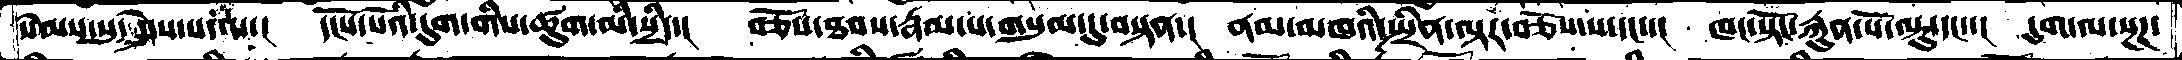སེམས་སུ་ཤེས་པ་ལ་།  དངོས་པོའི་དུག་གིས་ཚུག་མི་སྲིད་།  བཅོས་ཐབས་རྣམ་པ་གསུམ་དུ་བསྟན་།  ནམ་མཁའི་སྤྲིན་ལྟར་བཅོས་པ་དང་་།  ཁང་སྟོང་རྐུན་པོ་ལྟུ་དང་་།  དུག་ལ་སྔཌ་
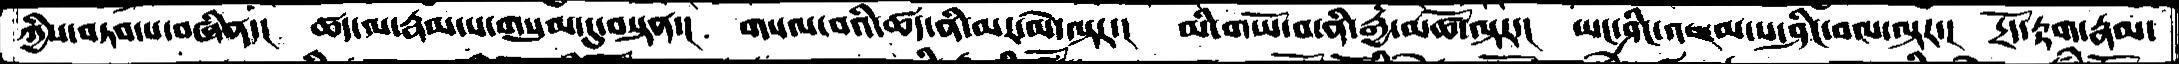ཀྱིས་བཏབ་པ་བཞིན་།  ཚད་ལ་རྣམ་པ་གསུམ་དུ་བསྟན་།  གསལ་བའི་ཚད་ནི་མར་མེ་ལྟར་།  མི་གཡོ་བ་ནི་རྒྱ་མཚོ་ལྟར་།  ཡང་ཤིང་འཇམ་པ་ཤིང་བལ་ལྟར་།  དྲོད་རྟག་རྣམ་
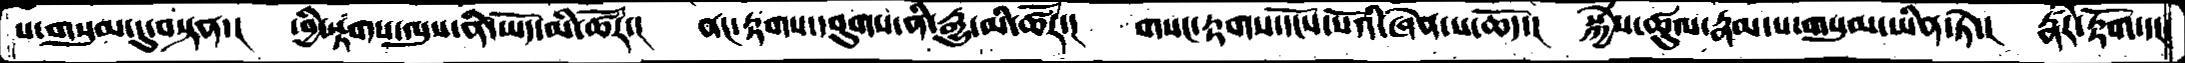པ་གསུམ་དུ་བསྟན་།  ཕྱི་རྟགས་ལུས་ནི་ཡོད་མི་ཚོར་།  ནང་རྟགས་དབུགས་ནི་རྒྱུ་མི་ཚོར་།  གསང་རྟགས་དངོས་པོའི་ཞེན་པ་ཆོད་།  སྐྱེས་ཚུལ་རྣམ་པ་གསུམ་ཡིན་ཏེ་།  རྣཾར་རྟོག་དང་
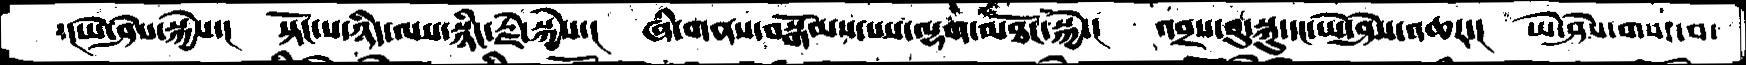་།ཡེ་ཤེས་སྐྱེས་།  སྟོང་པ་ཉིད་ལས་སྙིང་རྗེ་སྐྱེས་།  ཞི་གནས་བསྒོམས་པས་ལྷག་མཐོང་སྐྱེ་།  འབྲས་བུ་སྐུ་དང་ཡེ་ཤེས་འཆར་།  ཡེ་ཤེས་གསང་བ་
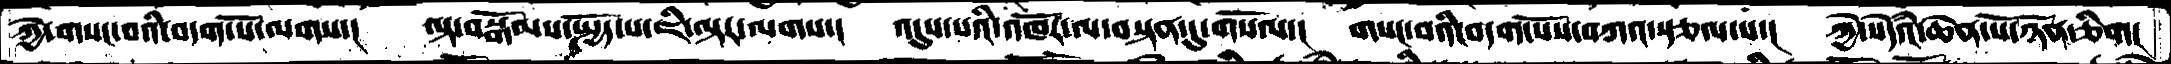ཀྱེ་གསང་བའི་བདག་པོ་ལགས་།  ལྟ་བསྒོམས་སྤྱོད་པ་ཇི་ལྟར་ལགས་།  འདུས་པའི་འཁོར་ལ་བསྟན་དུ་གསོལ་།  གསང་བའི་བདག་པོས་བཀའ་སྩལ་པ།  ཀྱེ་སེཾདའ་ཆེན་པོ་ཉོན་ཅིག།
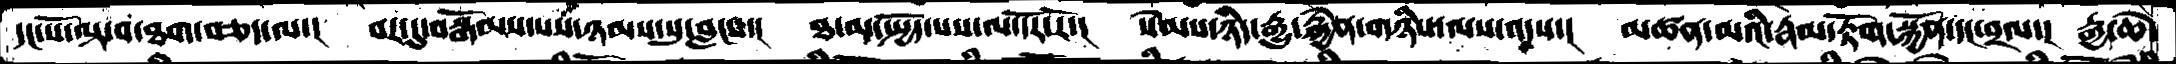དང་པོ་ལྟ་བ་ཐག་བཅད་ལ་།  བར་དུ་བསྒོམས་པས་ཉམས་སུ་བླངས་།  ཐ་མ་སྤྱོད་པས་ལ་དོར་རོ་།  སེམས་ཉིད་རྒྱུ་རྐྱེན་གཉིས་ལས་འདས་།  མཚན་མའི་རྣམ་རྟོག་སྐྱོན་དང་བྲལ་།  རྒྱ་ཆེ་
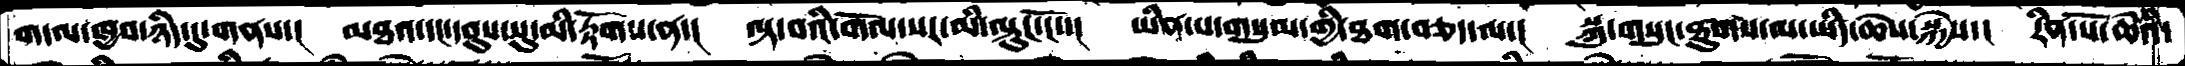གདལ་ཁྱབ་ཉིད་དུ་གནས་།  མཐའ་དང་དབུས་སུ་མི་རྟོགས་ན་།  ལྟ་བའི་གོལ་སར་མི་ལྟུང་ངོ་་།  ཡིན་པ་གསུམ་གྱི་ཐག་བཅད་ལ་།  སྐུ་གསུང་ཐུགས་ལ་ཡིད་ཆེས་སྐྱེས་།  རིན་པོ་ཆེའི་
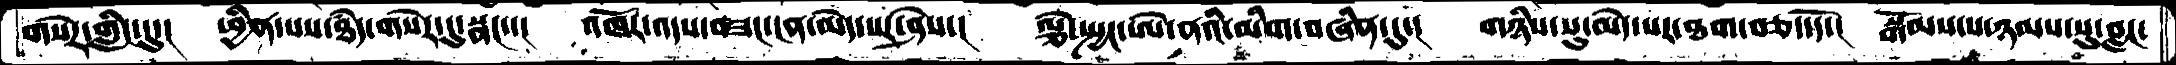གསེར་གླིང་དུ་།  ཕྱིན་པས་ཐཾད་གསེར་དུ་སྣང་་།  འཁོར་འདས་བཟང་ངན་མེད་པར་ཤེས་།  ལྕེ་སྤྱང་ཨེ་ནའི་མིག་བཞིན་དུ་།  གཉིས་སུ་མེད་པར་ཐག་བཅད་དོ་།  སྒོམས་པ་ཉམས་སུ་བླང་
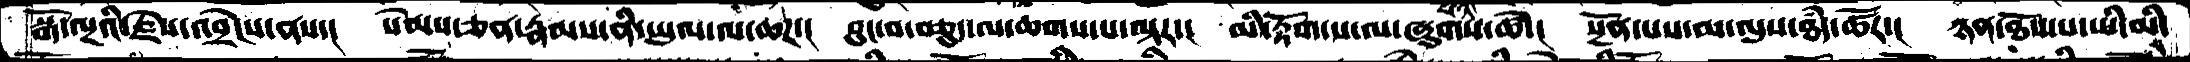སྒོ་ལྔའི་རྗེས་འབྲེངས་ནས་། སེམས་ཅན་རྣམས་ནི་ཡུལ་ལ་ཆཌ་། བུང་བ་བཅུད་ལ་ཆགས་པ་ལྟར་། མི་རྟོག་པ་ལ་ཞུགས་པའི་ཚེ་། སྔོན་པས་མ་ལུས་ཐཾད་ཚོར་། ཉན་ཐོས་པ་ཡི་མི་
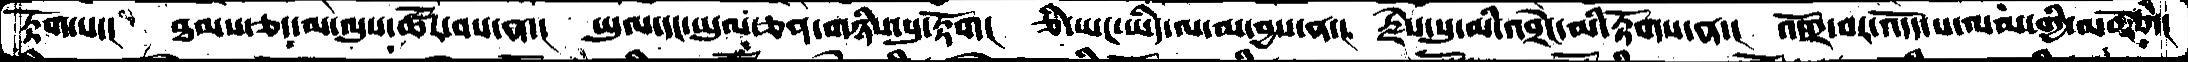རྟོག་པ་།  ཐམས་ཅད་མ་ལུས་ཚོར་བས་ན་།  ཡུལ་དང་ཡུལ་ཅན་གཉིས་སུ་རྟོག།  ཅི་ཡང་ཡིད་ལ་མ་བྱས་ན་།  རྗེས་སུ་མི་འབྲེང་མི་རྟོགས་ན་།  འགྲོ་བར་འདོད་པ་ལམ་གྱི་མཆོག།
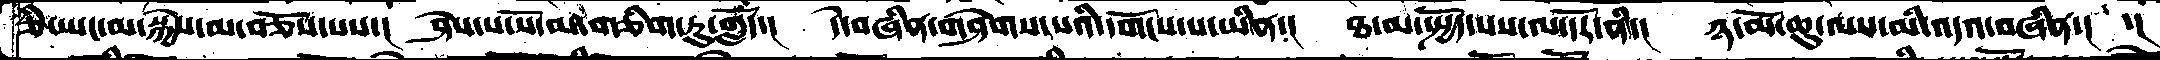ཅི་ཡང་མ་སྐྱེས་མ་བཅོས་པས་།  ཤེས་པ་སོ་མ་གཅིག་ཏུ་གློད་།  དེ་བཞིན་གཤེགས་པའི་དགོངས་པ་་ཡིན་།  ཐ་མ་སྤྱོད་པས་ལ་དོར་ནི་།  ཉ་མོ་ཆུ་ལས་མི་འདའ་བཞིན་།  ་།
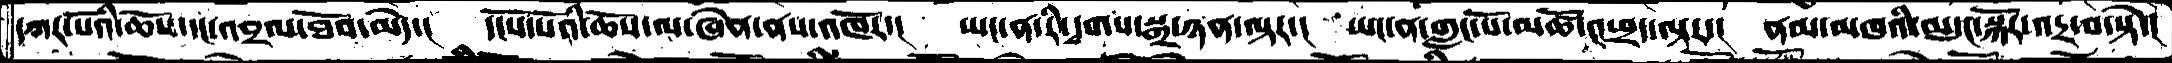དཀར་པོའི་ཆོས་དང་འབྲལ་ཐོབ་མེད་།  དངོས་པོའི་ཆོས་ལ་ཞེན་ནས་འཁོར་།  ཡང་ན་རི་དྭགས་སྒྲ་ཉན་ལྟར་།  ཡང་ན་གླང་པོ་མཚོ་འཕྲད་ལྟར་།  ནམ་མཁའི་མདུང་སྐོར་འདྲ་བ་སྟེ་།
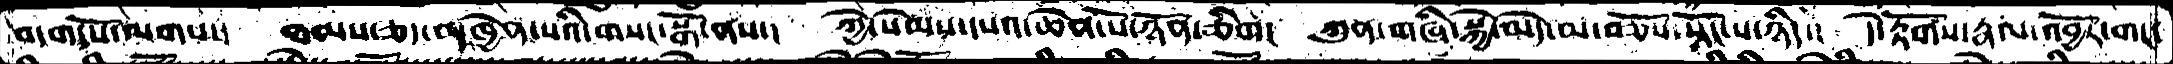བདག་པོ་ལགས་།  ཐམས་ཅད་མཁྱེན་པའི་གསང་སྒོ་ནས་།  ཀྱེ་སེམས་དཔའ་ཆེན་པོ་ཉོན་ཅིག།  ཀུན་གཞི་སྐྱེ་མེད་མ་བཅོས་སྟོང་པ་ཉིད་།  དེ་རྟོགས་རྣལ་འབྱོར་གང་
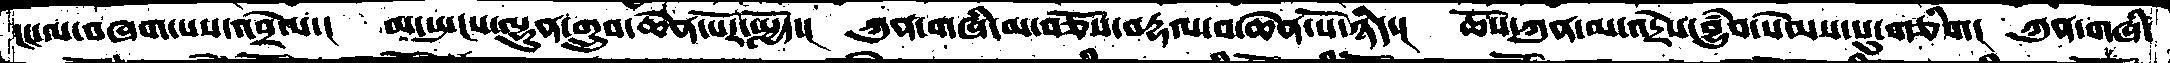ངང་ལ་བཞག་པས་འབྲེལ་།  མ་སྤངས་ལྷུན་གྲུབ་ཆེན་པོར་སྤྱོད་།  ཀུན་གཞི་མ་བཅོས་བརྡལ་བ་ཆེན་པོ་ཉིད་།  ཆོས་སྐུ་མ་འདྲེས་བྱུཾབ་སེམས་སུ་གཅིག།  ཀུན་གཞི་
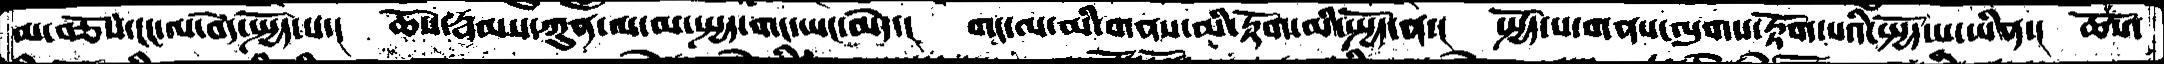མ་བཅོས་ངང་ལ་བདེ་སྤྱོད་པ་།  ཆོས་རྣམས་ཀུན་ལ་མ་སྤྱད་གང་ཡང་མེད་།  གང་ལ་མི་གནས་མི་རྟོག་མི་སྤྱོད་ན་།  སྤྱོད་པ་གནས་ལུགས་རྟོག་པའི་སྤྱོད་པ་ཡིན་།  ཆོས་
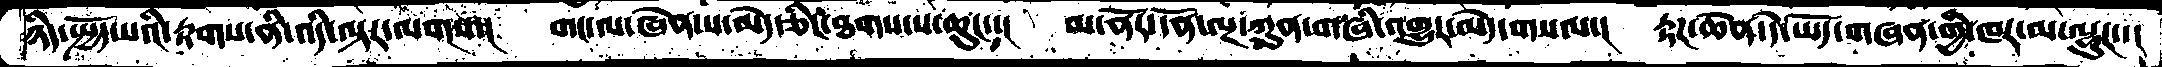ཉིད་སྤྱོད་པའི་རྟགས་ནི་འདི་ལྟར་ལགས་།  གང་ལ་ཞེན་པ་མེད་ཅིང་ཐགས་པ་ཆུང་་།  མ་ནོར་དོན་ལྔ་ཀུན་གཞི་འགྱུར་མེད་གསལ་།  རྟཌ་ཆེན་དེ་ཡོད་གཞན་གྱི་ཁར་མ་ལྷུང་་།
